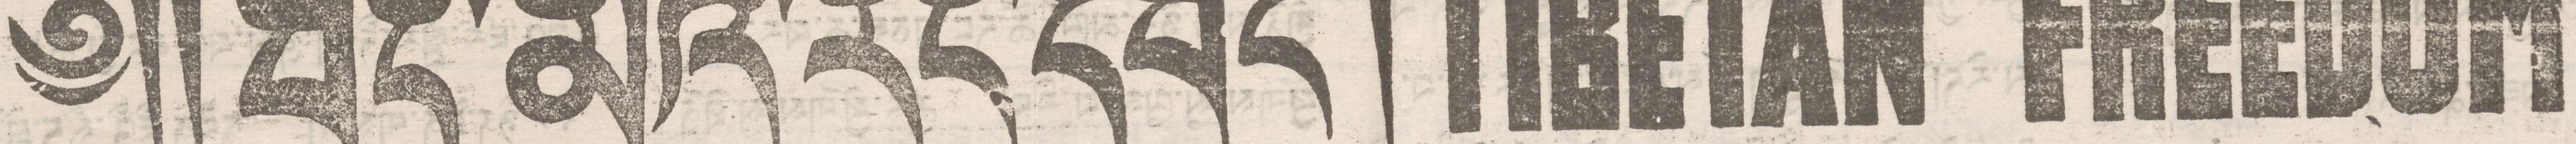༄།། བོད་མིའི་རང་དབང་།TIBETAN FREEDOM
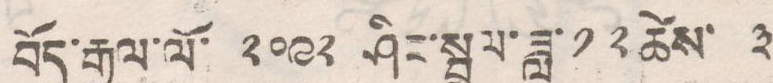བོད་རྒྱལ་ལོ་ ༢༠༩༢ ཤིང་སྤྲུལ་ཟླ་༡༢ཚེས་ ༣
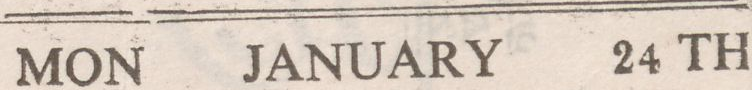MON JANUARY 24TH
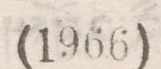(1966)
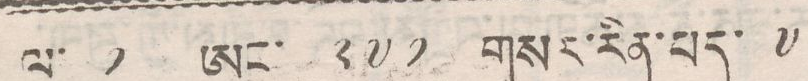ལ་ ༡ ཨང་ ༢༧༡ གསར་རིན་པད་ ༧
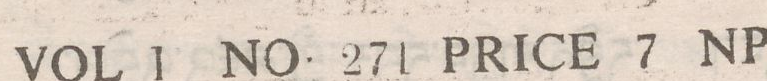VOL 1 NO 271 PRICE 7 NP
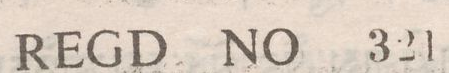REGD NO 321
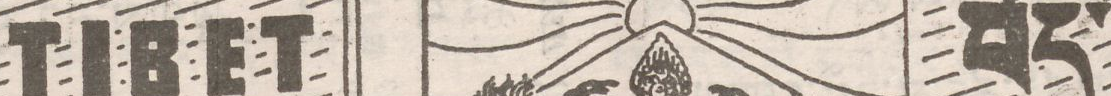TIBET བོད་
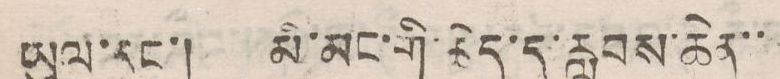ཡུལ་དང་། མི་མང་གི་ཆེད་དུ་རླབས་ཆེན་་
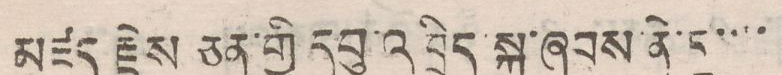མཛད རྗེས ཅན་གྱི་དབུ་འཁྲིད་སྐུ་ཞབས་ནེ་ཏཱ་་་་
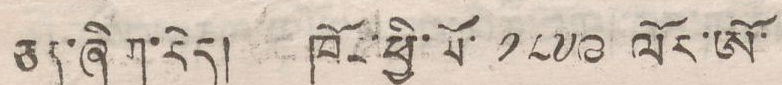ཅན་ཞིག་རེད། ཁོང་ཕྱི་ལོ་ ༡༨༧༩ ལོར་ཨོ་
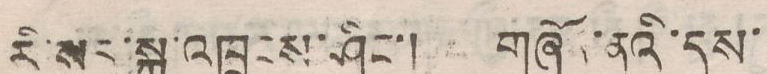རི་སར་སྐུ་ཁྲུངས་ཤིང་། གཞོན་ནུའི་དུས་
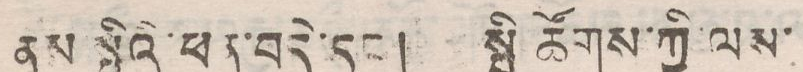ནས་སྤྱིའི་ཕན་བདེ་དང་། སྤྱི ཚོགས་ཀྱི་ལས་
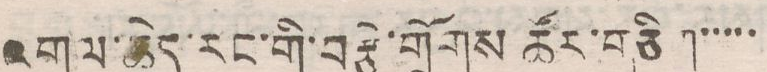འགུལ་ཆེད་རང་གི་བརྩེ་གྲོགས ཚོར་གཅིག་་་་་་
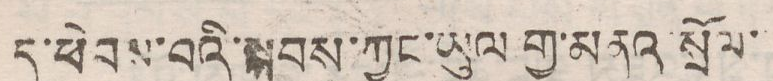དུ་ཕེབས་བའི་སྐབས་ཀྱང་ཡུལ་གྱ་མནའ་སྲོལ་
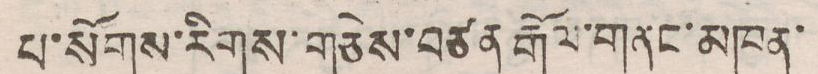པ་སོགས་རིགས་གཅེས་བཙན རྒོལ་གནང་མཁན་
